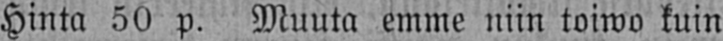Hinta 50 p. Muuta emme niin toiwo kuin
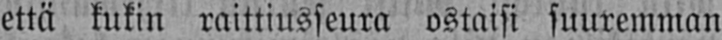että kukin raittiusseura ostaisi suuremman
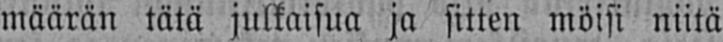määrän tätä julkaisua ja sitten möisi niitä
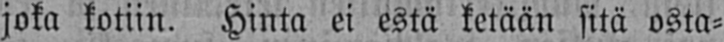joka kotiin. Hinta ei estä ketään sitä osta-
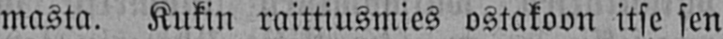masta. Kukin raittiusmies ostakoon itse sen
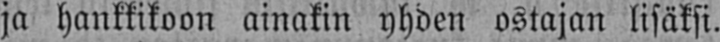ja hankkikoon ainakin yhden ostajan lisäksi.
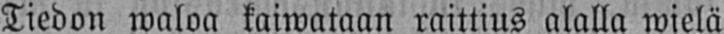Tiedon waloa kaiwataan raittius alalla wielä
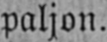paljon.
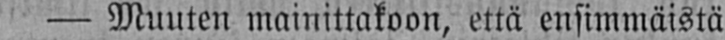— Muuten mainittakoon, että ensimmäistä
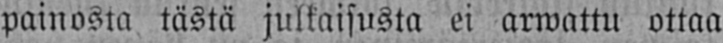painosta tästä julkaisusta ei arwattn ottaa
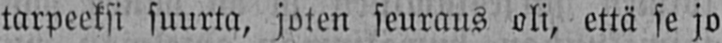tarpeeksi suurta, joten seuraus oli, että se jo
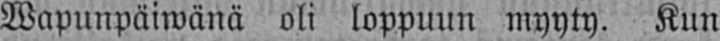Wapunpäiwänä oli loppuun myyty. Kun
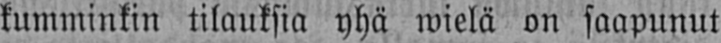kumminkin tilauksia yhä wielä on saapunut
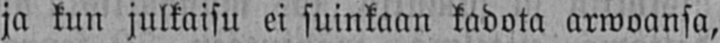ja kun julkaisu ei suinkaan kadota arwoansa,
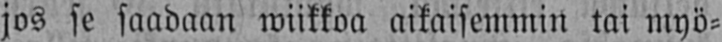jos se saadaan wiikkoa aikaisemmin tai myö-
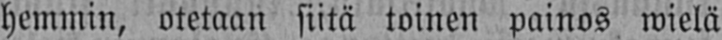hemmin, otetaan siitä toinen painos wielä
